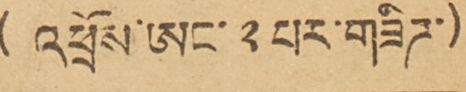མིས་བརྗོད་གསལ་ ( འཕྲོས་ཨང་ ༢ པར་གཟིཌ་)
